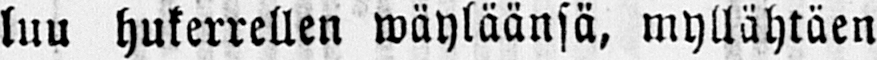luu hukerrellen wäyläänsä, myllähtäen
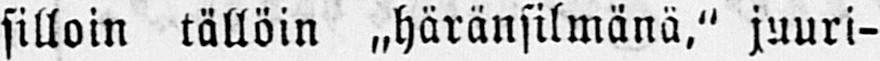silloin tällöin „häränsilmänä," juuri-
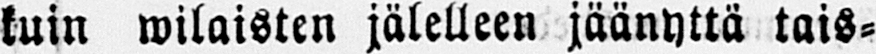tuin wilaisten jälelleen jäänyttä tais-
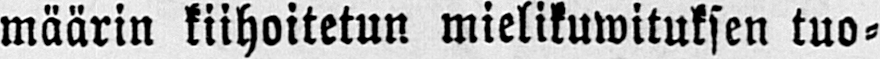määrin kiihoitetun mielikuwituksen tuo-
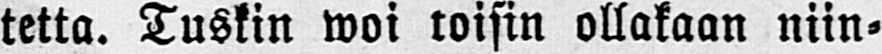tetta. Tuskin woi toisin ollakaan niin-
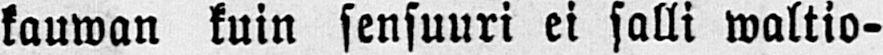kauwan kuin sensuuri ei salli waltio-
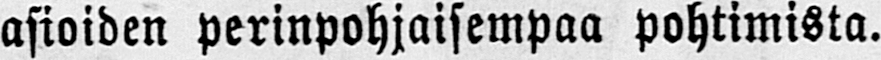asioiden perinpohjaisempaa pohtimista.
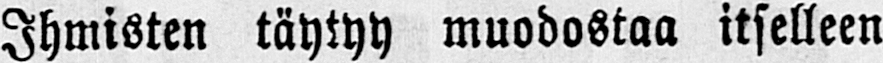Ihmisten täytyy muodostaa itselleen
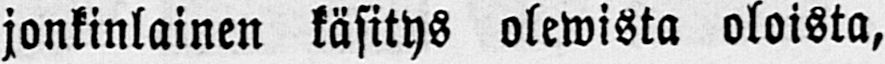jonkinlainen käsitys olewista oloista,
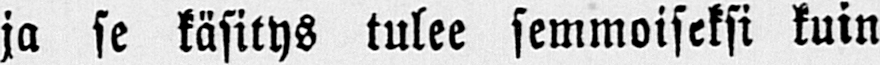ja se käsitys tulee semmoiseksi kuin
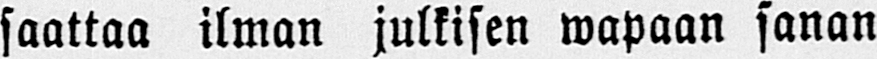saattaa ilman julkisen wapaan sanan
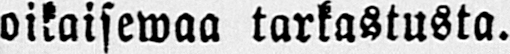oikaisewaa tarkastusta.
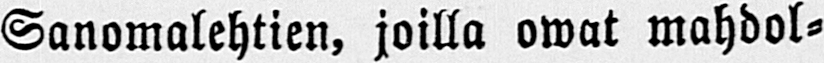Sanomalehtien, joilla owat mahdol-
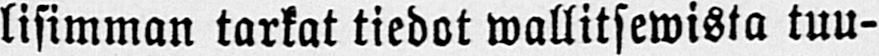lisimman tarkat tiedot wallitsewista tuu-
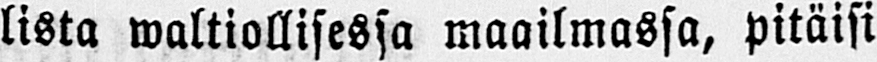lista waltiollisessa maailmassa, pitäisi
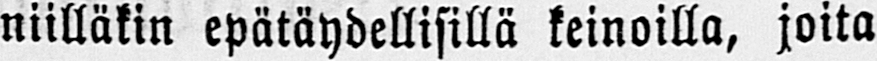niilläkin epätäydellisillä keinoilla, joita
